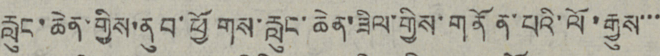རླུང་ཆེན་གྱིས་ནུབ་ཕྱོགས་རླུང་ཆེན་ཟིལ་གྱིས་གནོན་པའི་ལོ་རྒྱུས་་་
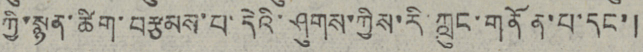ཀྱི་སྙན་ཚིག་བརྩམས་པ་དེའི་ཤུགས་ཀྱིས་རི་ཀླུང་གནོན་པ་དང་།
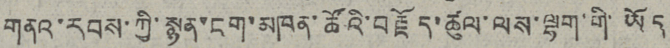གནའ་རབས་ཀྱི་སྙན་ངག་མཁན་ཚོའི་བརྗོད་ཚུལ་ལས་ལྷག་གི་ཡོད
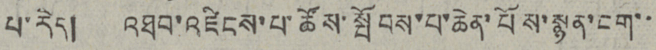པ་རེད། འཐབ་འཛིངས་པ་ཚོས་སྤོབས་པ་ཆེན་པོས་སྙན་ངག་་
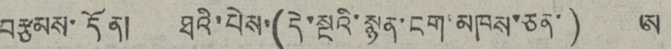བརྩམས་དོན། ཐའི་པེས་(དེ་སྔའི་སྙན་ངག་མཁས་ཅན་) ཨ
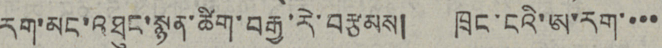རག་མང་འཐུང་སྙན་ཚིག་བརྒྱ་རེ་བརྩམས། ཁྲང་ངའི་ཨ་རག་་་་
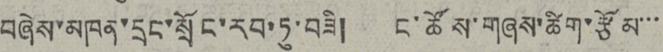བཞེས་མཁན་དྲང་སྲོང་རབ་ཏུ་བཟི། ང་ཚོས་གཞས་ཚིག་རྩོམ་་་
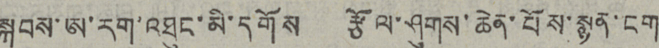སྐབས་ཨ་རག་འཐུང་མི་དགོས རྩོལ་ཤུགས་ཆེན་པོས་སྙན་ངག
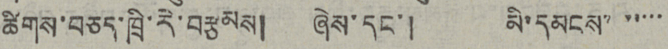ཚིགས་བཅད་ཁྲི་རེ་བརྩམས། ཞེས་དང་། མི་དམངས་་་་་་
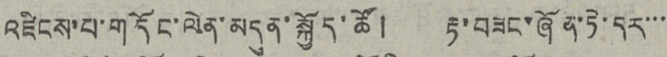འཛིངས་པ་གདོང་ལེན་མདུན་སྐྱོད་ཚོ། རྟ་བཟང་ཞོན་ཏེ་དར་་་
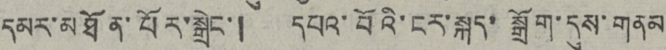དམར་མཐོན་པོར་སྒྲེང་། དཔའ་བོའི་ངར་སྐད་སྒྲོག་དུས་གནམ
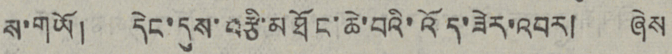ས་གཡོ། དེང་དུས་བརྩི་མཐོང་ཆེ་བའི་འོད་ཟེར་འབར། ཞེས
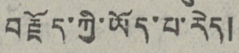བརྗོད་ཀྱི་ཡོད་པ་རེད།
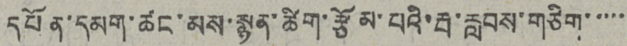དཔོན་དམག་ཚང་མས་སྙན་ཚིག་རྩོམ་པའི་རྦ་རླབས་གཅིག་་་་་
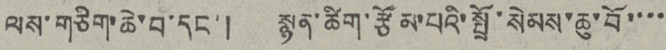ལས་གཅིག་ཆེ་བ་དང་།  སྙན་ཚིག་རྩོམ་པའི་སྤྲོ་སེམས་ཆུ་བོ་་་་
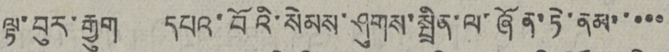ལྟ་བུར་རྒྱུག དཔའ་བོའི་སེམས་ཤུགས་སྤྲིན་ལ་ཞོན་ཏེ་ནམ་་་་་
